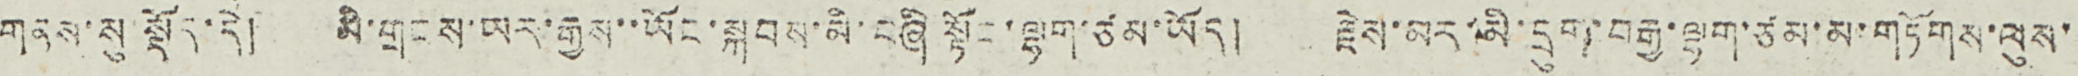གནས་སུ་སྡོད་དེ། མི་གྲངས་ཡར་རྒྱས་་ཡོང་སྐབས་མི་བཞི སྟོང་ལྷག་ཙམ་ཡོད། རྗེས་མར་མི་དྲུག་བརྒྱ་ལྷག་ཙམ་མ་གཏོག་ལུས་
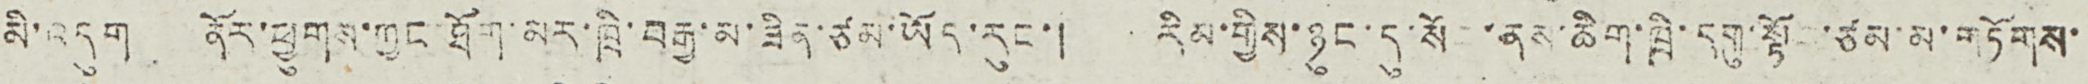མི་འདུག ནོར་ཕྱུགས་ཀྱང་ཐོག་མར་ཁྲི་བརྒྱ་མ་ཟིན་ཙམ་ཡོད་རུང་། རིམ་གྱིས་ཉུང་དུ་སོ ་ནས་ཆིག་ཁྲི་དགུ་སྟོ ་ཙམ་མ་གཏོགས་
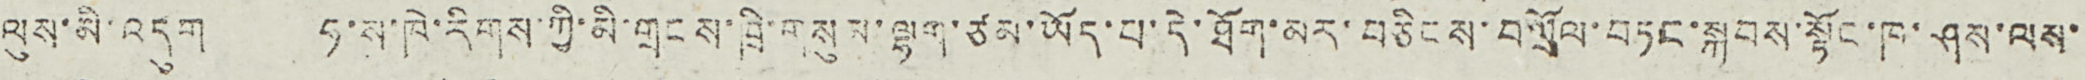ལུས་མི་འདུག ཧ་ས་ཁེ་རིགས་ཀྱི་མི་གྲངས་ཁྲི་གསུམ་ལྷག་ཙམ་ཡོད་པ་དེ་ཐོག་མར་བཅིངས་བཀྲོལ་བཏང་སྐབས་སྟོང་ཁ་ཤས་ལས་
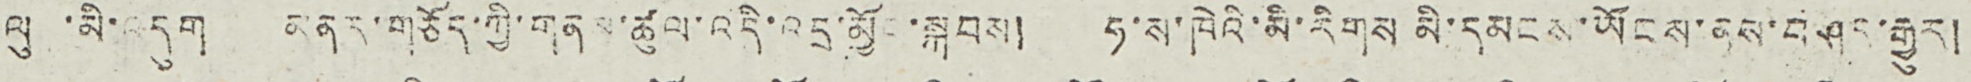ལུ ་མི་འདུག མནར་གཅོད་ཀྱི་གནས་ཚུལ་འདི་འདྲ་མྱོང་སྐབས། ཧ་ས་ཁེའི་མི་རིགས མི་དམངས་ཡོངས་ནས་བཤད་རྒྱུར།
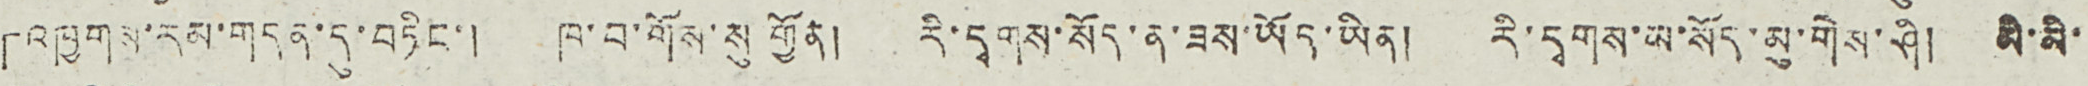「འཁྱགས་རམ་གདན་དུ་བཏིང་། ཁ་བ་གོས་སུ གྱོན། རི་དྭགས་སོད་ན་ཟས་ཡོད་ཡིན། རི་དྭགས་ས་སོད་མུ་གེས་ཤི། མི་མི་
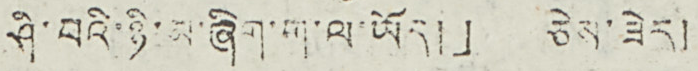ཤི་བའི་ཉི་མ་ཞིག་ག་ལ་ཡོད།」 ཅེས་ཟེར།
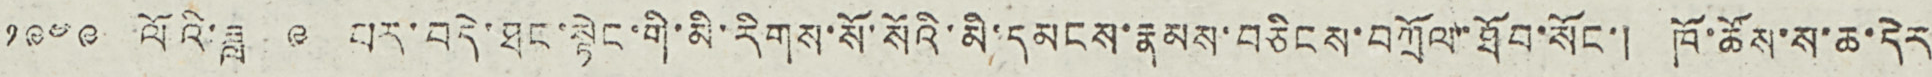༡༩༥༩ ལོའི་ཟླ ༩ པར་བདེ་ཐང་སྟེང་གི་མི་རིགས་སོ་སོའི་མི་དམངས་རྣམས་བཅིངས་བཀྲོལ་ཐོབ་སོང་། ཁོ་ཚོས་ས་ཆ་དེར
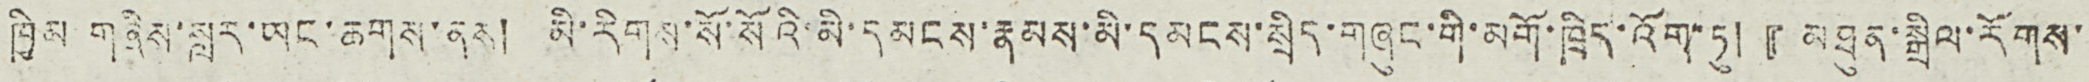ཁྱིམ གཞིས་སླར་ཡང་ཆགས་ནས། མི་རིགས་སོ་སོའི་མི་དམངས་རྣམས་མི་དམངས་སྲིད་གཞུང་གི་མགོ་ཁྲིད་འོག་ཏུ། 『མཐུན་སྒྲིལ་རོགས་
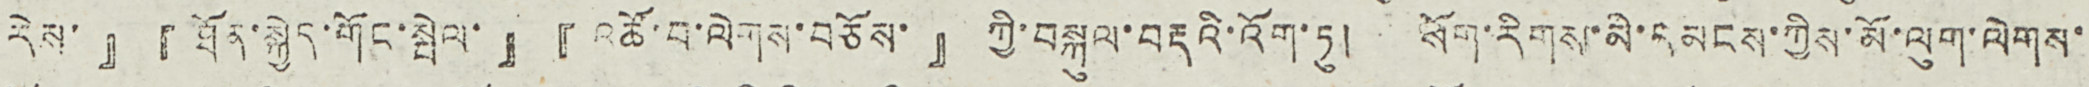རེས་』『ཐོན་སྐྱེད་གོང་སྤེལ་』『འཚོ་བ་ལེགས་བཅོས་』ཀྱི་བསྐུལ་བརྡའི་འོག་ཏུ། སོག་རིགས་མི་དམངས་ཀྱིས་མོ་ལུག་ལེགས་
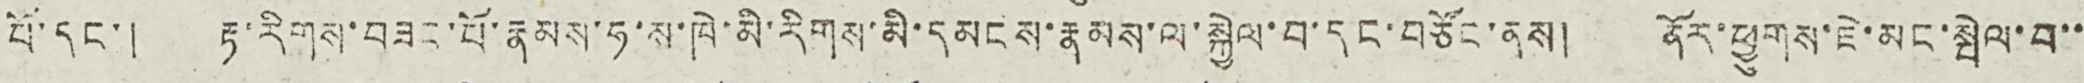པོ་དང་། རྟ་རིགས་བཟང་པོ་རྣམས་ཧ་ས་ཁེ་མི་རིགས་མི་དམངས་རྣམས་ལ་སྐྱེལ་བ་དང་བཅོང་ནས། ནོར་ཕྱུགས་ཇེ་མང་སྤེལ་བ་་
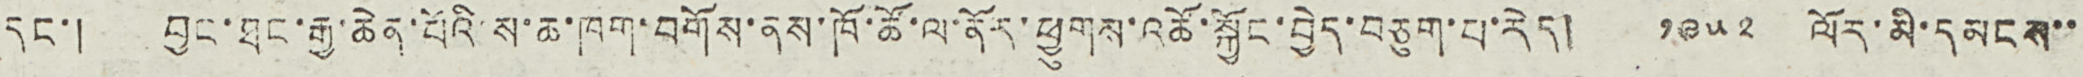དང་། བྱང་ཐང་རྒྱ་ཆེན་པོའི་ས་ཆ་ཁག་བགོས་ནས་ཁོ་ཚོ་ལ་ནོར་ཕྱུགས་འཚོ་སྐྱོང་བྱེད་བཅུག་པ་རེད། ༡༩༥༢ ལོར་མི་དམངས་་
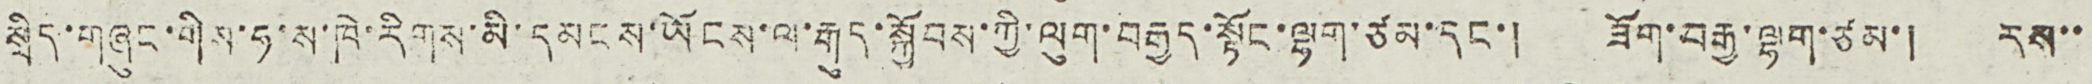སྲིད་གཞུང་གིས་ཧ་ས་ཁེ་རིགས་མི་དམངས་ཡོངས་ལ་རྒུད་སྐྱོབས་ཀྱི་ལུག་བརྒྱད་སྟོང་ལྷག་ཙམ་དང་། ཟོག་བརྒྱ་ལྷག་ཙམ་། རས་་
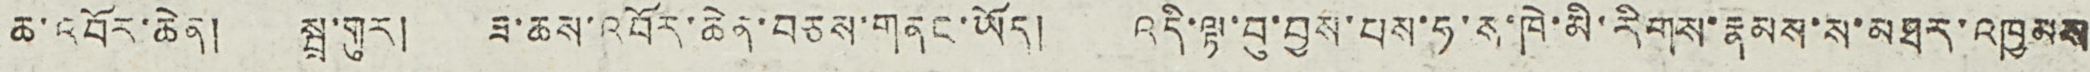ཆ་འབོར་ཆེན། སྤྲ་གུར། ཟ་ཆས་འབོར་ཆེན་བཅས་གནང་ཡོད། འདི་ལྟ་བུ་བྱས་པས་ཧ་ས་ཁེ་མི་རིགས་རྣམས་ས་མཐར་འཁྱམས
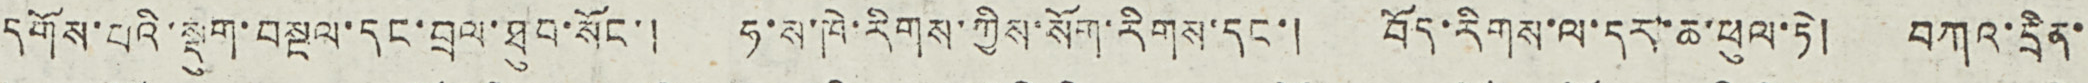དགོས་པའི་སྡུག་བསྔལ་དང་བྲལ་ཐུབ་སོང་། ཧ་ས་ཁེ་རིགས་ཀྱིས་སོག་རིགས་དང་། བོད་རིགས་ལ་དར་ཆ་ཕུལ་ཏེ། བཀའ་དྲིན་
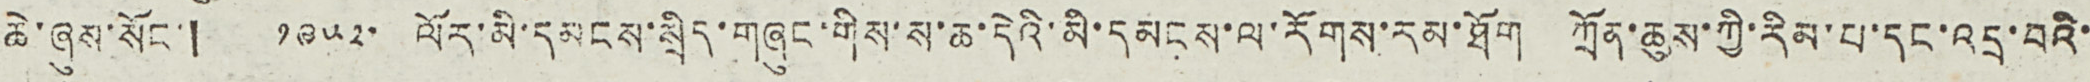ཆེ་ཞུས་སོང་། ༡༩༥༢་ ལོར་མི་དམངས་སྲིད་གཞུང་གིས་ས་ཆ་དེའི་མི་དམངས་ལ་རོགས་རམ་ཐོག ཀྲོན་ཆུས་ཀྱི་རིམ་པ་དང་འདྲ་བའི་
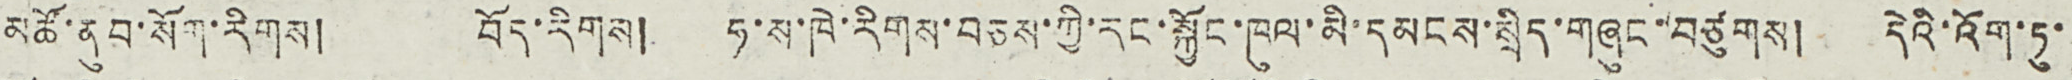མཚོ་ནུབ་སོག་རིགས། བོད་རིགས། ཧ་ས་ཁེ་རིགས་བཅས་ཀྱི་རང་སྐྱོང་ཁུལ་མི་དམངས་སྲིད་གཞུང་བཙུགས། དེའི་འོག་ཏུ་
